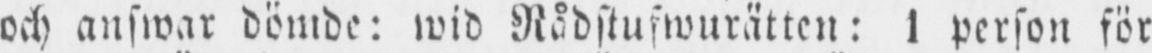och answar dömde: wid Rådstufwurätten: 1 person för
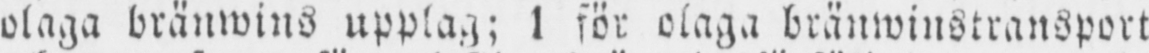olaga bränwins upplag; 1 för olaga brämvinstransport
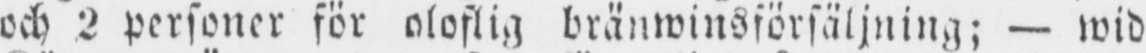och 2 personer för oloflig bränwinsförsäljning; — wid
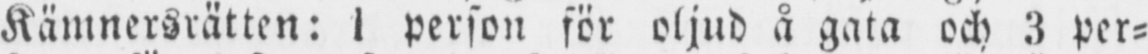Kämnersrätten: 1 person för oljud å gata och 3 per-
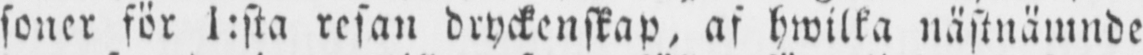soner för 1:sta resan dryckenskap, af hwilka nästnämnde
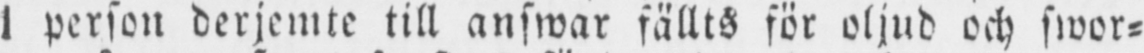1 person derjemte till answar fällts för oljud och swor-
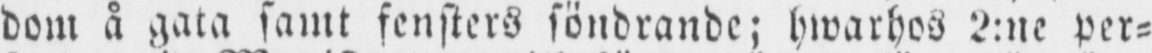dom å gata samt fensters söndrande; hwarhos 2:ne per-
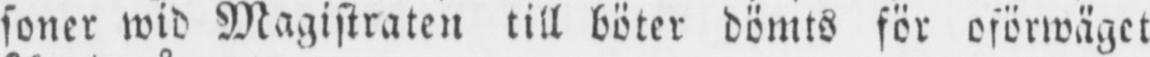soner wid Magistraten till böter dömts för oförwäget
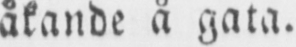åkande å gata.
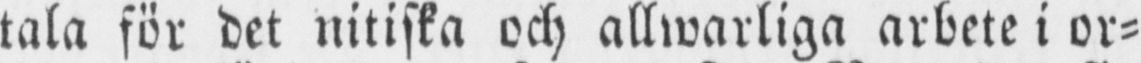tala för det nitiska och allwarliga arbete i or-
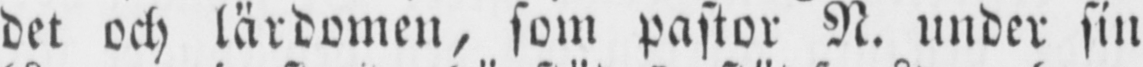det och lärdomen, som pastor N. under sin
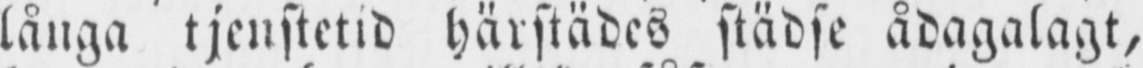långa tjenstetid härstädes städse ådagalagt,
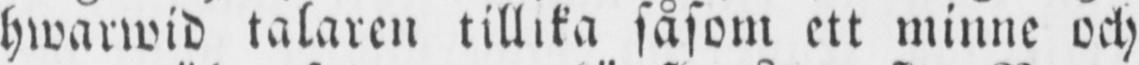hwarwid talaren tillika såsom ett minne och
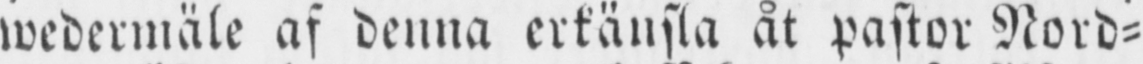wedermäle af denna erkänsla åt pastor Nord-
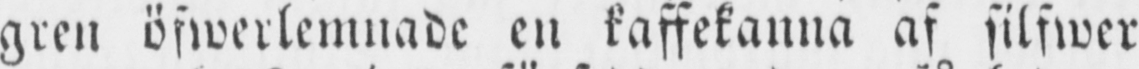gren öfwerlemnade en kaffekanna af silfwer
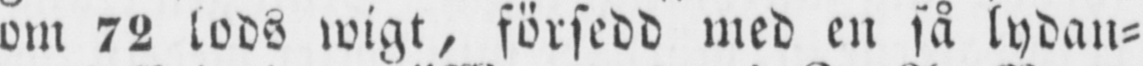om 72 lods wigt, försedd med en så lydan-
